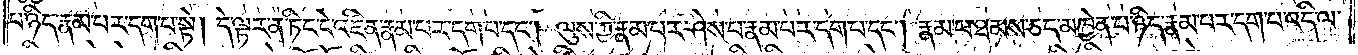པ་ཉིད་རྣམ་པར་དག་པ་སྟེ། དེ་ལྟར་ན་ཏིང་ངེ་འཛིན་རྣམ་པར་དག་པ་དང༌། ལུས་ཀྱི་རྣམ་པར་ཤེས་པ་རྣམ་པར་དག་པ་དང༌། རྣམ་པ་ཐམས་ཅད་མཁྱེན་པ་ཉིད་རྣམ་པར་དག་པ་འདི་ལ་
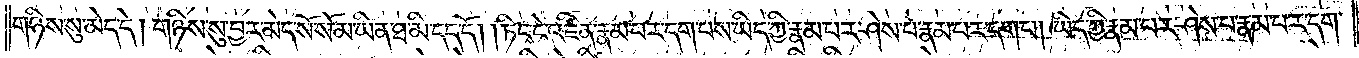གཉིས་སུ་མེད་དེ། གཉིས་སུ་བྱར་མེད་སོ་སོ་མ་ཡིན་ཐ་མི་དད་དོ། །ཏིང་ངེ་འཛིན་རྣམ་པར་དག་པས་ཡིད་ཀྱི་རྣམ་པར་ཤེས་པ་རྣམ་པར་དག་པ། ཡིད་ཀྱི་རྣམ་པར་ཤེས་པ་རྣམ་པར་དག་
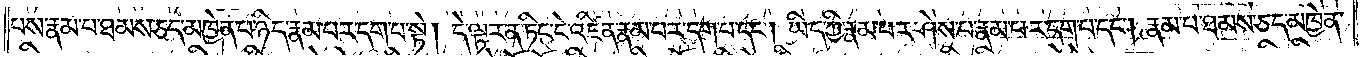པས་རྣམ་པ་ཐམས་ཅད་མཁྱེན་པ་ཉིད་རྣམ་པར་དག་པ་སྟེ། དེ་ལྟར་ན་ཏིང་ངེ་འཛིན་རྣམ་པར་དག་པ་དང༌། ཡིད་ཀྱི་རྣམ་པར་ཤེས་པ་རྣམ་པར་དག་པ་དང༌། རྣམ་པ་ཐམས་ཅད་མཁྱེན་
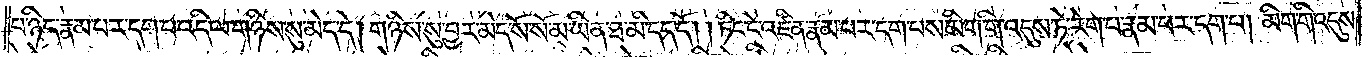པ་ཉིད་རྣམ་པར་དག་པ་འདི་ལ་གཉིས་སུ་མེད་དེ། གཉིས་སུ་བྱར་མེད་སོ་སོ་མ་ཡིན་ཐ་མི་དད་དོ། །ཏིང་ངེ་འཛིན་རྣམ་པར་དག་པས་མིག་གི་འདུས་ཏེ་རེག་པ་རྣམ་པར་དག་པ། མིག་གི་འདུས་
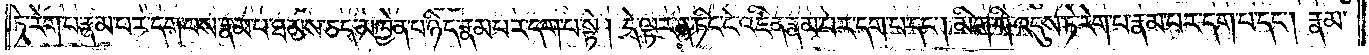ཏེ་རེག་པ་རྣམ་པར་དག་པས་རྣམ་པ་ཐམས་ཅད་མཁྱེན་པ་ཉིད་རྣམ་པར་དག་པ་སྟེ། དེ་ལྟར་ན་ཏིང་ངེ་འཛིན་རྣམ་པར་དག་པ་དང༌། མིག་གི་འདུས་ཏེ་རེག་པ་རྣམ་པར་དག་པ་དང༌། རྣམ་
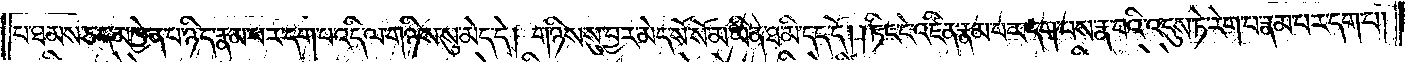པ་ཐམས་ཅད་མཁྱེན་པ་ཉིད་རྣམ་པར་དག་པ་འདི་ལ་གཉིས་སུ་མེད་དེ། གཉིས་སུ་བྱར་མེད་སོ་སོ་མ་ཡིན་ཐ་མི་དད་དོ། །ཏིང་ངེ་འཛིན་རྣམ་པར་དག་པས་རྣ་བའི་འདུས་ཏེ་རེག་པ་རྣམ་པར་དག་པ།
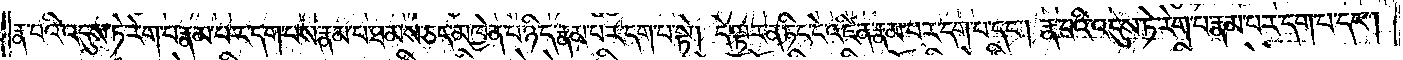རྣ་བའི་འདུས་ཏེ་རེག་པ་རྣམ་པར་དག་པས་རྣམ་པ་ཐམས་ཅད་མཁྱེན་པ་ཉིད་རྣམ་པར་དག་པ་སྟེ། དེ་ལྟར་ན་ཏིང་ངེ་འཛིན་རྣམ་པར་དག་པ་དང༌། རྣ་བའི་འདུས་ཏེ་རེག་པ་རྣམ་པར་དག་པ་དང༌།
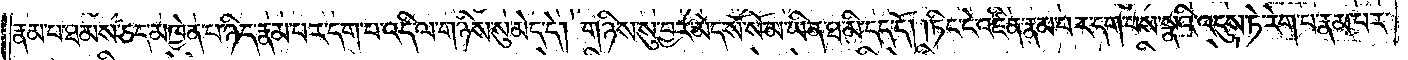རྣམ་པ་ཐམས་ཅད་མཁྱེན་པ་ཉིད་རྣམ་པར་དག་པ་འདི་ལ་གཉིས་སུ་མེད་དེ། གཉིས་སུ་བྱར་མེད་སོ་སོ་མ་ཡིན་ཐ་མི་དད་དོ། །ཏིང་ངེ་འཛིན་རྣམ་པར་དག་པས་སྣའི་འདུས་ཏེ་རེག་པ་རྣམ་པར་
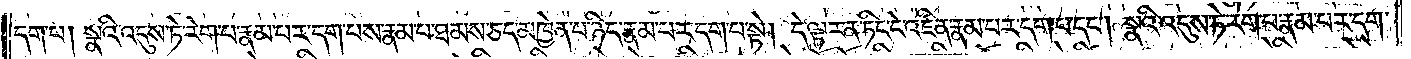དག་པ། སྣའི་འདུས་ཏེ་རེག་པ་རྣམ་པར་དག་པས་རྣམ་པ་ཐམས་ཅད་མཁྱེན་པ་ཉིད་རྣམ་པར་དག་པ་སྟེ། དེ་ལྟར་ན་ཏིང་ངེ་འཛིན་རྣམ་པར་དག་པ་དང༌། སྣའི་འདུས་ཏེ་རེག་པ་རྣམ་པར་དག་
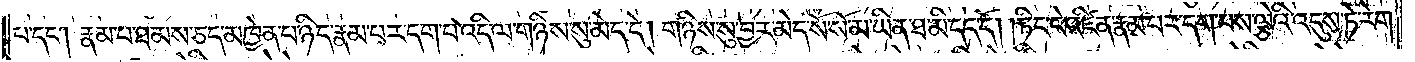པ་དང༌། རྣམ་པ་ཐམས་ཅད་མཁྱེན་པ་ཉིད་རྣམ་པར་དག་པ་འདི་ལ་གཉིས་སུ་མེད་དེ། གཉིས་སུ་བྱར་མེད་སོ་སོ་མ་ཡིན་ཐ་མི་དད་དོ། །ཏིང་ངེ་འཛིན་རྣམ་པར་དག་པས་ལྕེའི་འདུས་ཏེ་རེག་
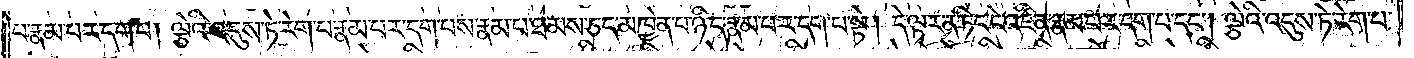པ་རྣམ་པར་དག་པ། ལྕེའི་འདུས་ཏེ་རེག་པ་རྣམ་པར་དག་པས་རྣམ་པ་ཐམས་ཅད་མཁྱེན་པ་ཉིད་རྣམ་པར་དག་པ་སྟེ། དེ་ལྟར་ན་ཏིང་ངེ་འཛིན་རྣམ་པར་དག་པ་དང༌། ལྕེའི་འདུས་ཏེ་རེག་པ་
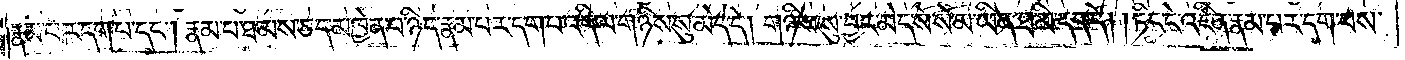རྣམ་པར་དག་པ་དང༌། རྣམ་པ་ཐམས་ཅད་མཁྱེན་པ་ཉིད་རྣམ་པར་དག་པ་འདི་ལ་གཉིས་སུ་མེད་དེ། གཉིས་སུ་བྱར་མེད་སོ་སོ་མ་ཡིན་ཐ་མི་དད་དོ། །ཏིང་ངེ་འཛིན་རྣམ་པར་དག་པས་
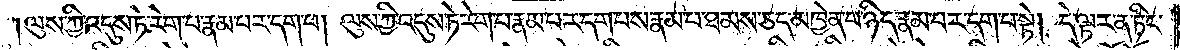ལུས་ཀྱི་འདུས་ཏེ་རེག་པ་རྣམ་པར་དག་པ། ལུས་ཀྱི་འདུས་ཏེ་རེག་པ་རྣམ་པར་དག་པས་རྣམ་པ་ཐམས་ཅད་མཁྱེན་པ་ཉིད་རྣམ་པར་དག་པ་སྟེ། དེ་ལྟར་ན་ཏིང་
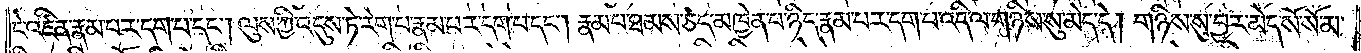ངེ་འཛིན་རྣམ་པར་དག་པ་དང༌། ལུས་ཀྱི་འདུས་ཏེ་རེག་པ་རྣམ་པར་དག་པ་དང༌། རྣམ་པ་ཐམས་ཅད་མཁྱེན་པ་ཉིད་རྣམ་པར་དག་པ་འདི་ལ་གཉིས་སུ་མེད་དེ། གཉིས་སུ་བྱར་མེད་སོ་སོ་མ་
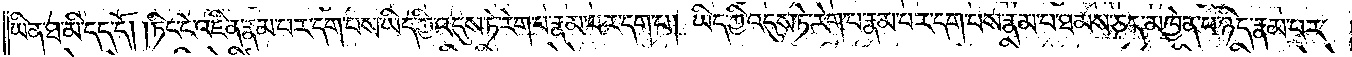ཡིན་ཐ་མི་དད་དོ། །ཏིང་ངེ་འཛིན་རྣམ་པར་དག་པས་ཡིད་ཀྱི་འདུས་ཏེ་རེག་པ་རྣམ་པར་དག་པ། ཡིད་ཀྱི་འདུས་ཏེ་རེག་པ་རྣམ་པར་དག་པས་རྣམ་པ་ཐམས་ཅད་མཁྱེན་པ་ཉིད་རྣམ་པར་
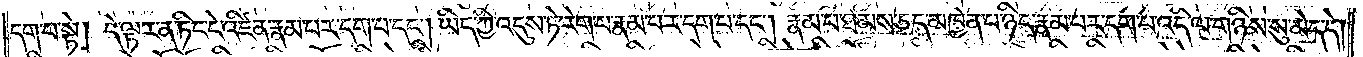དག་པ་སྟེ། དེ་ལྟར་ན་ཏིང་ངེ་འཛིན་རྣམ་པར་དག་པ་དང༌། ཡིད་ཀྱི་འདུས་ཏེ་རེག་པ་རྣམ་པར་དག་པ་དང༌། རྣམ་པ་ཐམས་ཅད་མཁྱེན་པ་ཉིད་རྣམ་པར་དག་པ་འདི་ལ་གཉིས་སུ་མེད་དེ།
